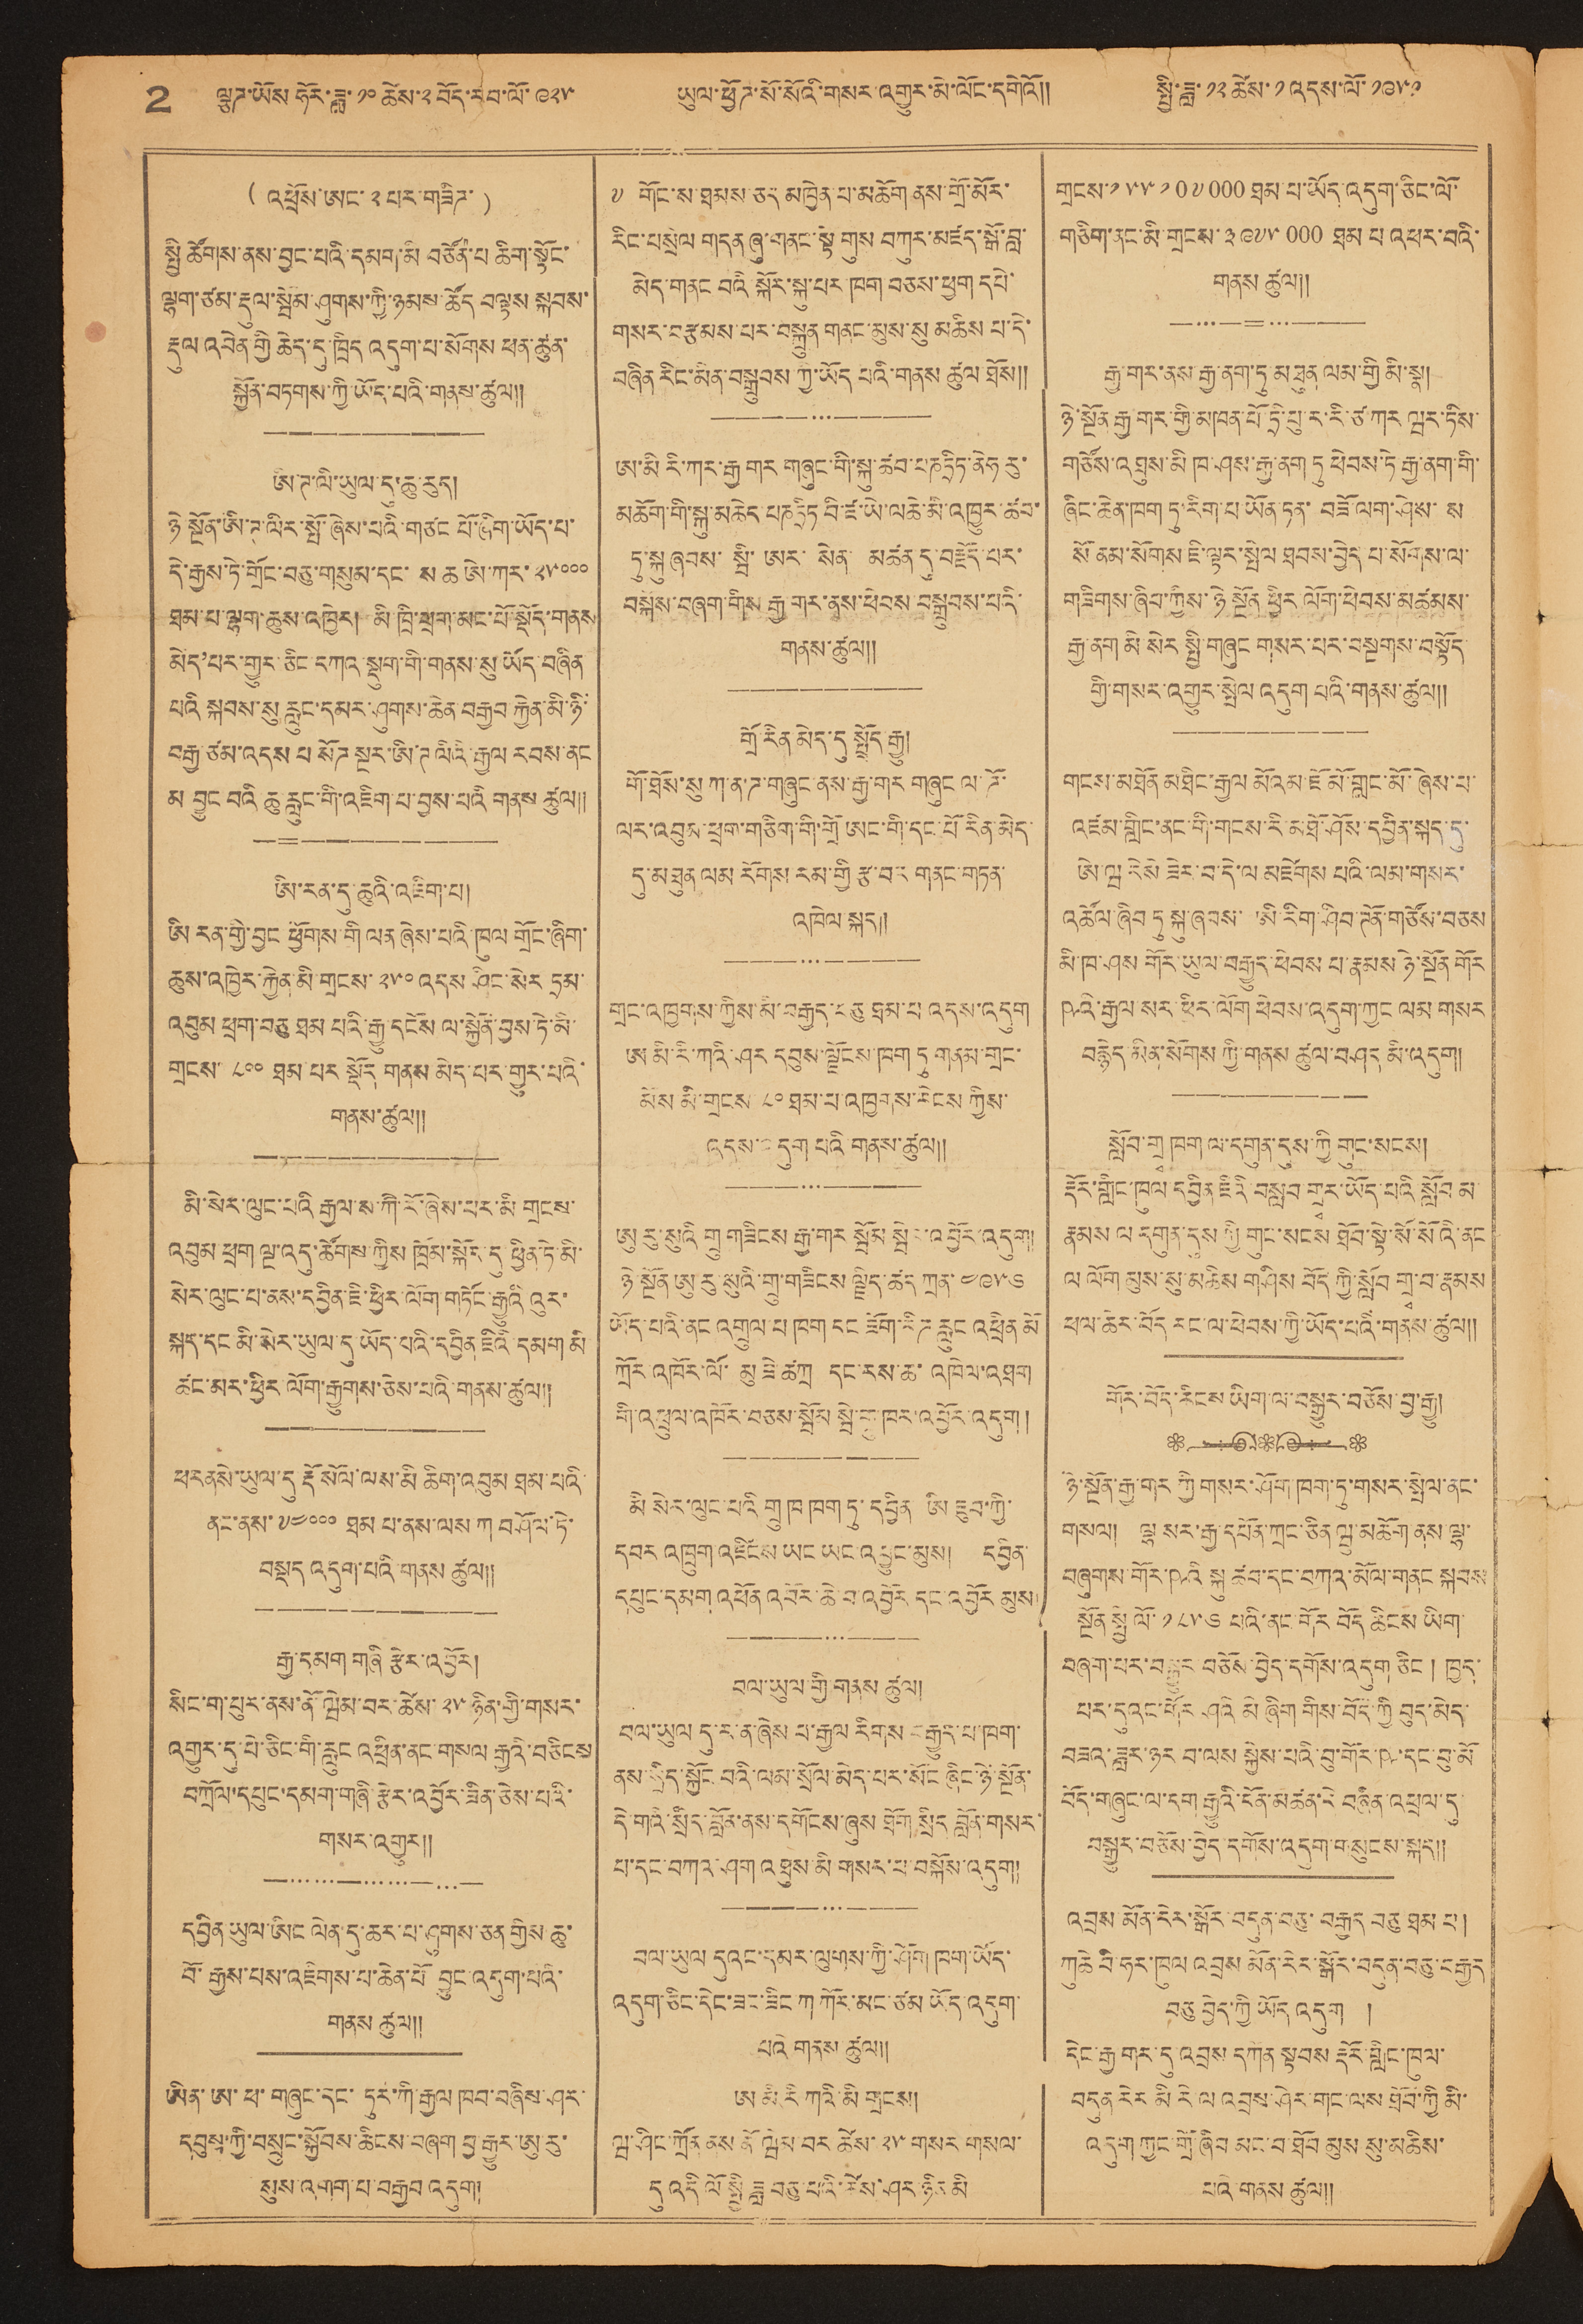2 ལྕཌ་ཡོས ཧོར་ཟླ་ ༡༠ ཚེས་༢བོད་རབ་ལོ་ ༩༢༥ ཡུལ་ཕྱོཌ་སོ་སོའི་གསར་འགྱུར་མེ་ལོང་དགེའོ།། སྤྱི་ཟླ་ ༡༢ ཚེས་ ༡ འདས་ལོ་ ༡༩༥༡
(འཕྲོས་ཨང་ ༢ པར་གཟིཌ་ )
སྤྱི ཚོགས་ནས་བྱང་པའི་དམག་མི བཙོན་པ ཆིག་སྟོང་
ལྷག་ཙམ་རྡུལ་སྦོམ་ཤུགས་ཀྱི་ཉམས་ཚོད བལྟས སྐབས་
རྡུལ འབེན་གྱི ཆེད་དུ་ཁྲིད འདུག་པ་སོགས ཕན་ཚུན་
སྐྱོན་བཏགས་ཀྱི་ཡོད་པའི་གནས་ཚུལ།།
ཨི་ཊ་ལི་ཡུལ་དུ་ཆུ་རུད།
ཉེ སྔོན་ཨི་ཊ་ལིར་སྤོ་ཞེས་པའི་གཙང པོ་ཞིག་ཡོད་པ་
དེ་རྒྱས་ཏེ་གྲོང་བཅུ་གསུམ་དང་ ས ཆ ཨེ་ཀར་ ༢༥༠༠༠
ཐམ་པ་ལྷག་ཆུས་འཁྱེར། མི ཁྲི་ཕྲག་མང་པོ་སྡོད་གནས
མེད་པར་གྱུར་ཅིང་དཀའ་སྡུག་གི་གནས་སུ ཡོད་བཞིན
པའི སྐབས་སུ རླུང་དམར་ཤུགས་ཆེན་བརྒྱབ་རྐྱེན་མི་ཉི་
བརྒྱ་ཙམ་འདས པ སོཌ སྔར་ཨི་ཊལིའི་རྒྱལ རབས་ནང
མ བྱུང བའི ཆུ་རླུང་གི་འཇིག་པ་བྱས་པའི གནས ཚུལ།།
ཨི རན་གྱི་བྱང ཕྱོགས་གི ལན ཞེས་པའི་ཁལ གྲོང་ཞིག་
ཆུས་འཁྱེར་རྐྱེན་མི་གྲངས་ ༢༥༠ འདས ཤིང་སེར ཏྲམ་
འབུམ ཕྲག་བཅུ ཐམ པའི་རྒྱུ་དངོས ལ་སྐྱོན་བྱས་ཏེ་མི་
གྲངས་ ༨༠༠ ཐམ་པར སྡོད གནས མེད་པར་གྱུར་པའི་
གནས་ཚུལ།།
ཨི་རན་དུ་ཆུའི་འཇིག་པ།
མི་སེར་ལུང་པའི རྒྱལ་ས་ཀི་རོ་ཞེས་པར་མི གྲངས་
འབུམ་ཕྲག ལྔ་འདུ་ཚོགས་ཀྱིས ཁྲོམ་སྐོར་དུ་ཕྱིན་ཏེ་མི་
སེར་ལུང་པ་ནས་དབྱིན་ཇི་ཕྱིར་ལོག་གཏོང་རྒྱུའི འུར་
སྐད་དང་མི་སེར་ཡུལ་དུ་ཡོད་པའི་དབྱིན ཇིའི་དམག མི
ཚང་མར་ཕྱིར ལོག་རྒྱུགས་ཅེས་པའི་གནས་ཚུལ།།
ཕརནསེ་ཡུལ་དུ་རྡོ སོལ་ལས་མི ཆིག་འབུམ ཐམ་པའི་
ནང་ནས་༧༤༠༠༠ ཐམ པ་ནས་ལས་ཀ བཤོལ་ཏེ་
བསྡད འདུག་པའི་གནས ཚུལ།།
རྒྱ་དམག གཞི རྩེར་འབྱོར།
སིང་ག་པུར་ནས་ནོ་ཝེམ་བར་ཚེས་ ༢༥ ཉིན་གྱི་གསར་
འགྱུར་དུ་པེ་ཅིང་གི་རླུང འཕྲིན་ནང་གསལ རྒྱའི་བཅིངས
བཀྲོལ་དཔུང་དམག་གཞི་རྩེར་འབྱོར་ཟིན་ཅེས་པའི་
གསར་འགྱུར།།
དབྱིན་ཡུལ་ཨིང ལེན་དུ་ཆར་པ་ཤུགས་ཅན གྱིས ཆུ་
བོ་རྒྱས་པས་འཇིགས་པ་ཆེན་པོ བྱུང་འདུག་པའི་
གནས ཚུལ།།
ཡིན་ཨ་ཕ་གཞུང་དང་ཏུར་ཀི་རྒྱལ ཁབ་བཞིས་ཤར
དབུས་ཀྱི་བསྲུང་སྐྱོབས་ཆིངས་བཞག བྱ་རྒྱུར་ཨུ་རུ་
སུས་འགག་པ་བརྒྱབ འདུག།།
༸ གོང་ས་ཐམས་ཅད མཁྱེན་པ་མཆོག ནས་གྲོ་མོར་
རིང་བསྲེལ གདན ཞུ་གནང་སྟེ གུས བཀུར་མཛད་སྒོ་བླ་
མེད་གནང བའི་སྐོར་སྐུ་པར་ཁག་བཅས་ཕྱག དཔེ་
གསར་བརྩམས་པར་བསྐྲུན གནང་མུས་སུ མཆིས པ་དེ་
བཞིན རིང་མིན་བསྒྲུབས་ཀྱི་ཡོད པའི་གནས ཚུལ་ཐོས།།
ཨ་མི རི་ཀར་རྒྱ་གར གཞུང་གི་སྐུ་ཚབ་པཎཏྲིཏ་ནེཧརུ་
མཆོག་གི་སྐུ་མཆེད་པཎཏྲིཏ བི་ཛ་ཡེ་ལཆེ་མི་འཁྱུར་ཚབ་
ཏུ་སྐུ་ཞབས་སྦི་ཨར་སེན་ མཚན་དུ་བརྗོད་པར་
བསྐོས་བཞག་གིས རྒྱ་གར་ནས་ཕེབས་བསྒྲུབས་པའི་
གནས་ཚུལ།།
གྲོ་རིན མེད་དུ སྤྲོད་རྒྱུ།
གོ་ཐོས་སུ ཀ་ན་ཌ་གཞུང་ནས་རྒྱ་གར གཞུང ལ་ཌོ་
ལར་འབུམ་ཕྲག་གཅིག་གི་གྲོ ཨང་གི་དང་པོ རིན་མེད་
དུ་མཐུན ལམ རོགས རམ་གྱི རྩ་བར གནང་གཏན་
འཁེལ་སྐད།།
གྲང་འཁྱགས་ཀྱིས་མི་བརྒྱད་བཅུ ཐམ་པ འདུས་འདུག
ཨ མི་རི་ཀའི་ཤར དབུས་ལྗོངས་ཁག ཏུ གནམ་གྲང་
མོས མི་གྲངས་ ༨༠ ཐམ་པ་འཁྱགས་རིངས ཀྱིས་
འདས་འདུག པའི་གནས་ཚུལ།།
ཨུ རུ་སུའི གྲུ གཟིངས རྒྱ་གར སྦོམ སྦྱེར་འབྱོར་འདུག།།
ཉེ་སྔོན ཨུ རུ་སུའི་གྲུ་གཟིངས ལྗིད་ཚད ཀྲན་ ༤༩༥༦
ཡོད་པའི་ནང འགྲུལ་པ ཁག དང ཟོག་རིཌ རླུང འཕྲིན མོ
ཀྲོར་འཁོར་ལོ་མུ ཟེ་ཚཀྲ དང་རས་ཆ་འཁེལ་འཐག
གི་འཕྲུལ་འཁོར་བཅས་སྦོམ སྦེ་བུ་གྲུ་ཁར་འབྱོར་འདུག།།
མི སེར་ལུང་པའི གྲུ ཁ ཁག ཏུ་དབྱིན ཨི ཇུབ་ཀྱི་
དབར འཁྲུག་འཛིངས ཡང ཡང་འབྱུང་མུས། དབྱིན་
དཔུང་དམག འཕོན འབོར་ཆེ་བ་འབྱོར དང་འབྱོར མུས
བལ་ཡུལ་གྱི་གནས ཚུལ།
བལ་ཡུལ དུ་ར་ན་ཞེས པ་རྒྱལ རིགས བརྒྱུད་པ་ཁག་
ནས་སྲིད་སྐྱོང བའི་ལམ་སྲོལ་མེད་པར་སོང ཞིང་ཉེ་སྔོན་
དེ་གའི་སྲིད་བློན་ནས་དགོངས་ཞུས ཐོག་སྲིད བློན་གསར་
པ་དང་བཀའ་ཤག འཐུས་མི གསར་པ་བསྐོས་འདུག།།
བལ་ཡུལ དུའང་དམར་ལུགས་ཀྱི་ཤོག ཁག་ཡོད་
འདུག་ཅིང་དེང་ཟང་ཟིང་ཀ ཀོར་མང་ཙམ ཡོད་འདུག་
པའི གནས་ཚུལ།།
ཨ མི རི ཀའི་མི གྲངས།
ཝ་ཤིང་ཀྲོན ནས ནོ ཝེམ་བར ཚེས་ ༢༥ གསར གསལ་
དུ འདི ལོ སྤྱི ཟླ བཅུ་པའི་ཚེས་ཤར་ཉིས མི
གྲངས་༡༥༥༡0༧000 ཐམ་པ་ཡོད་འདུག་ཅིང་ལོ་
གཅིག་ནང་མི་གྲངས་༣༩༧༥000ཐམ པ འཕར་བའི་
གནས་ཚུལ།།
རྒྱ་གར་ནས་རྒྱ་ནག་ཏུ་མཐུན ལམ་གྱི མི་སྣ།
ཉེ་སྔོན རྒྱ་གར་གྱི་མཁན་པོ་ཏྲི་པུ་ར་རི་ཙ་ཀར ཝར་ཏིས་
གཙོས་འཐུས་མི ཁ་ཤས་རྒྱ་ནག ཏུ ཕེབས་ཏེ་རྒྱ་ནག་གི་
ཞིང་ཆེན་ཁག ཏུ་རིག་པ་ཡོན་ཏན་ བཟོ་ལག་ཤེས་ ས
སོ ནམ་སོགས་ཇི་ལྟར་སྤེལ ཐབས་བྱེད་པ་སོགས་ལ་
གཟིགས་ཞིབ་ཀྱིས་ཉེ སྔོན ཕྱིར ལོག་ཕེབས་མཚམས་
རྒྱ་ནག མི་སེར སྤྱི་གཞུང གསར་པར་བསྔགས་བསྟོད་
གྱི་གསར་འགྱུར་སྤེལ་འདུག པའི་གནས་ཚུལ།།
གངས་མཐོན མཐིང་རྒྱལ མོའམ་ཇོ མོ་གླང་མོ་ཞེས་པ་
འཛམ་གླིང་ནང་གི་གངས་རི་མཐོ་ཤོས་དབྱིན་སྐད་དུ་
ཨེ་ཝ རེསེ ཟེར་བ་དེ་ལ མཛེགས པའི་ལམ་གསར་
འཚོལ་ཞིབ ཏུ སྐུ་ཞབས་ ཨི་རིག་ཤིབ་ཊོན་གཙོས་བཅས
མི་ཁ་ཤས གོར་ཡུལ་བརྒྱུད་ཕེབས པ་རྣམས ཉེ་སྔོན གོར་
ཥའི་རྒྱལ་སར་ཕྱིར་ལོག ཕེབས་འདུག་ཀྱང་ལམ གསར
བརྙེད་མིན་སོགས ཀྱི་གནས ཚུལ་བཤད མི་འདུག།།
སློབ་གྲྭ ཁག ལ་དགུན་དུས་ཀྱི གུང་སངས།
རྡོར་གླིང་ཁུལ་དབྱིན ཇིའི་བསླབ་གྲྭར་ཡོད་པའི་སློབ་མ་
རྣམས ལ དགུན་དུས ཀྱི གུང་སངས ཐོབ་སྟེ་སོ་སོའི་ནང
ལ ལོག མུས་སུ་མཆིས གཤིས བོད ཀྱི་སློབ་གྲྭ་བ་རྣམས
ཕལ་ཆེར་བོད རང་ལ་ཕེབས་ཀྱི་ཡོད་པའི་གནས་ཚུལ།།
གོར་བོད་རིངས ཡིག་ལ་བསྒྱུར་བཅོས་བྱ་རྒྱུ།
ཉེ་སྔོན་རྒྱ་གར ཀྱི གསར་ཤོག་ཁག་ཏུ་གསར་སྤེལ་ནང་
གསལ། ལྷ་སར་རྒྱ་དཔོན་ཀྲང་ཅིན་ཝུ་མཆོག ནས་ལྷ་
བཞུགས་གོར་ཥའི སྐུ་ཚབ་དང་བཀའ་མོལ་གནང སྐབས
སྔོན སྤྱི ལོ་ ༡༨༥༦ པའི་ནང་གོར བོད ཆིངས ཡིག་
བཞག་པར་བསྒྱུར་བཅོས་བྱེད་དགོས་འདུག ཅིང་། ཁྱད་
པར་དུའང་གོར ཤའི མེ ཞིག གིས་བོད་ཀྱི བུད་མེད་
བཟའ་ཟླར་ཉར་བ་ལས སྐྱེས་པའི་བུ་གོར་ཥ་དང་བུ་མོ
བོད་གཞུང་ལ་དག རྒྱུའི་དོན་མཚན་དེ བཞིན་འཕྲལ་དུ
བསྒྱུར་བཅོས་བྱེད་དགོས་འདུག་གསུངས་སྐད།།
འབྲས་མོན་རེར་སྒོར་བདུན་བཅུ་བརྒྱད བཅུ ཐམ པ།
ཀུཆེ བི་ཧར་ཁུལ འབྲས མོན་རེར་སྒོར་བདུན་བཅུ་བརྒྱད
བཅུ བྱེད་ཀྱི ཡོད འདུག །
དེང་རྒྱ་གར་དུ་འབྲས དཀོན སྟབས རྡོར་གླིང་ཁུལ་
བདུན རེར མི རི་ལ འབྲས་ཤེར་གང་ལས ཐོབ་ཀྱི མི་
འདུག ཀྱང་གྲོ་ཞིབ མང་བ་ཐོབ མུས སུ་མཆིས་
པའི་གནས ཚུལ།།
